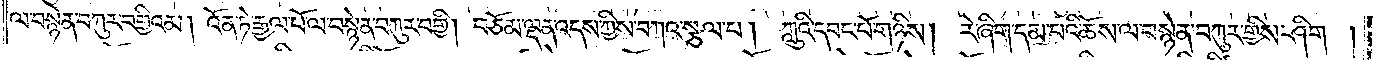ལ་བསྙེན་བཀུར་བགྱིའམ། འོན་ཏེ་རྒྱལ་པོ་ལ་བསྙེན་བཀུར་བགྱི། བཅོམ་ལྡན་འདས་ཀྱིས་བཀའ་སྩལ་པ། ཀླུའི་དབང་པོ་གཉིས། རེ་ཞིག་དམ་པའི་ཆོས་ལ་བསྙེན་བཀུར་གྱིས་ཤིག །
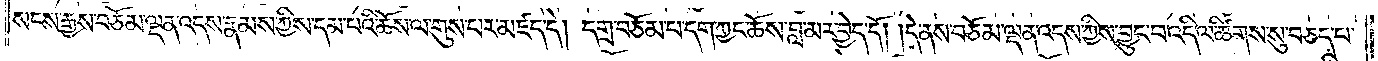སངས་རྒྱས་བཅོམ་ལྡན་འདས་རྣམས་ཀྱིས་དམ་པའི་ཆོས་ལ་གུས་པར་མཛད་དེ། དགྲ་བཅོམ་པ་དག་ཀྱང་ཆོས་བླ་མར་བྱེད་དོ། །དེ་ནས་བཅོམ་ལྡན་འདས་ཀྱིས་བྱུང་བ་འདི་ལ་ཚིགས་སུ་བཅད་པ་
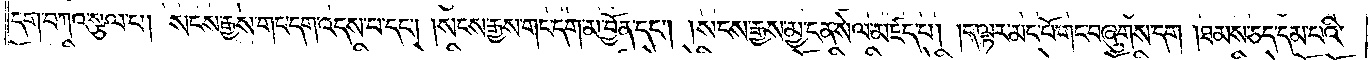དག་བཀའ་སྩལ་པ། སངས་རྒྱས་གང་དག་འདས་པ་དང༌། །སངས་རྒྱས་གང་དག་མ་བྱོན་དང༌། །སངས་རྒྱས་མྱ་ངན་སེལ་མཛད་པ། །ད་ལྟར་མང་པོ་གང་བཞུགས་དག །ཐམས་ཅད་དམ་པའི་
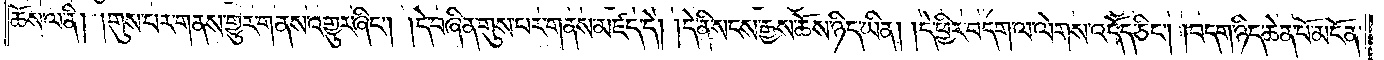ཆོས་ལ་ནི། །གུས་པར་གནས་གྱུར་གནས་འགྱུར་ཞིང༌། །དེ་བཞིན་གུས་པར་གནས་མཛད་དེ། །དེ་ནི་སངས་རྒྱས་ཆོས་ཉིད་ཡིན། །དེ་ཕྱིར་བདག་ལ་ལེགས་འདོད་ཅིང༌། །བདག་ཉིད་ཆེན་པོ་མངོན་
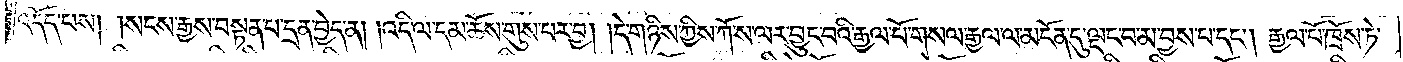འདོད་པས། །སངས་རྒྱས་བསྟན་པ་དྲན་བྱེད་ན། །འདི་ལ་དམ་ཆོས་གུས་པར་བྱ། །དེ་གཉིས་ཀྱིས་ཀོ་ས་ལར་བྱུང་བའི་རྒྱལ་པོ་གསལ་རྒྱལ་ལ་མངོན་དུ་ལྡང་བ་མ་བྱས་པ་དང༌། རྒྱལ་པོ་ཁྲོས་ཏེ་
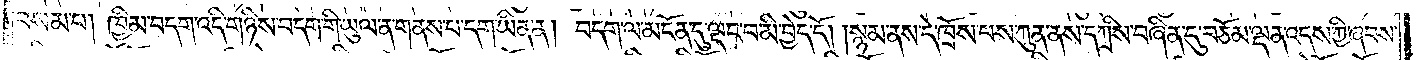བསམ་པ། ཁྱིམ་བདག་འདི་གཉིས་བདག་གི་ཡུལ་ན་གནས་པ་དག་ཡིན་ན། བདག་ལ་མངོན་དུ་ལྡང་བ་མི་བྱེད་དོ། །སྙམ་ནས་དེ་ཁྲོས་པས་ཀུན་ནས་དཀྲིས་བཞིན་དུ་བཅོམ་ལྡན་འདས་ཀྱི་ཞབས་
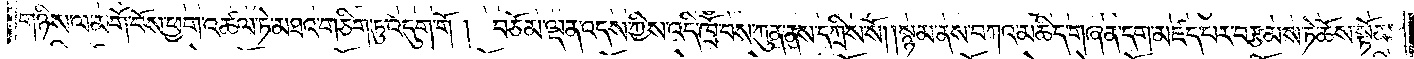གཉིས་ལ་མགོ་བོས་ཕྱག་འཚལ་ཏེ་མཐའ་གཅིག་ཏུ་འདུག་གོ ། བཅོམ་ལྡན་འདས་ཀྱིས་འདི་ཁྲོ་བས་ཀུན་ནས་དཀྲིས་སོ། །སྙམ་ནས་བཀའ་མཆིད་གཞན་དག་མཛད་པར་བརྩམས་ཏེ་ཆོས་སྟོན་
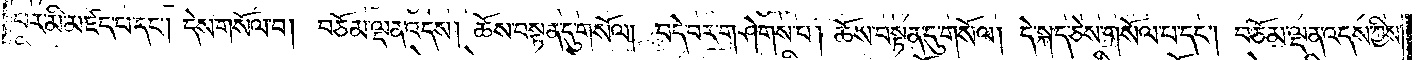པར་མི་མཛད་པ་དང༌། དེས་གསོལ་བ། བཅོམ་ལྡན་འདས། ཆོས་བསྟན་དུ་གསོལ། །བདེ་བར་གཤེགས་པ། ཆོས་བསྟན་དུ་གསོལ། དེ་སྐད་ཅེས་གསོལ་པ་དང༌། བཅོམ་ལྡན་འདས་ཀྱིས་
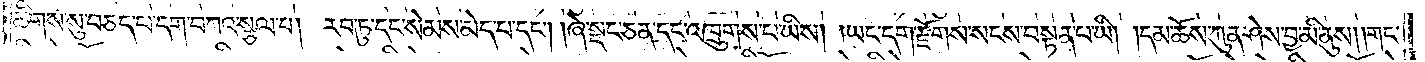ཚིགས་སུ་བཅད་པ་དག་བཀའ་སྩལ་པ། རབ་ཏུ་དང་སེམས་མེད་པ་དང༌། །ཞེ་སྡང་ཅན་དང་འཁྲུགས་པ་ཡིས། །ཡང་དག་རྫོགས་སངས་བསྟན་པ་ཡི། །དམ་ཆོས་ཀུན་ཤེས་བྱ་མི་ནུས༎གང་
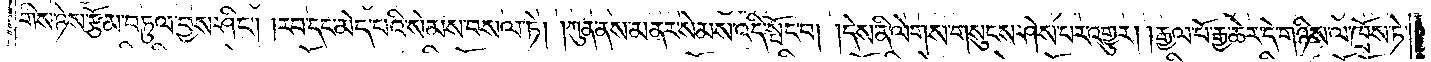གིས་ཉེས་རྩོམ་བཏུལ་བྱས་ཤིང༌། །རབ་དང་མེད་པའི་སེམས་བསལ་ཏེ། །ཀུན་ནས་མནར་སེམས་འདི་སྤོང་བ། །དེས་ནི་ལེགས་གསུངས་ཤེས་པར་འགྱུར། །རྒྱལ་པོ་རྒྱ་ཆེར་དེ་གཉིས་ལ་ཁྲོས་ཏེ་
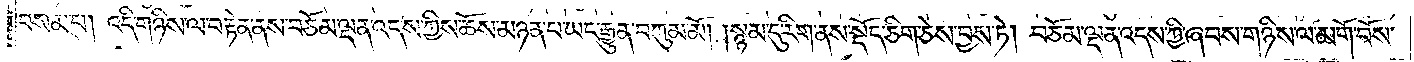བསམ་པ། འདི་གཉིས་ལ་བརྟེན་ནས་བཅོམ་ལྡན་འདས་ཀྱིས་ཆོས་མཉན་པ་ཡང་རྒྱུན་བཀུམ་མོ། །སྙམ་དུ་རིག་ནས་སྡོད་ཅིག་ཅེས་བྱས་ཏེ། བཅོམ་ལྡན་འདས་ཀྱི་ཞབས་གཉིས་ལ་མགོ་བོས་
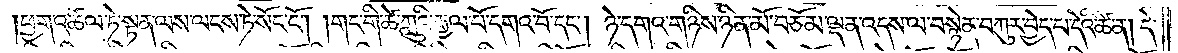ཕྱག་འཚལ་ཏེ་སྟན་ལས་ལངས་ཏེ་སོང་ངོ༌། །གང་གི་ཚེ་ཀླུའི་རྒྱལ་པོ་དགའ་བོ་དང༌། ཉེ་དགའ་གཉིས་ཉིན་མོ་བཅོམ་ལྡན་འདས་ལ་བསྙེན་བཀུར་བྱེད་པ་དེའི་ཚེ་ན། དེ་
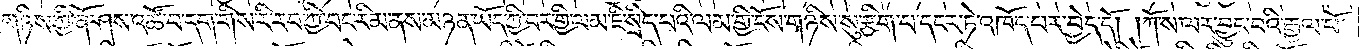གཉིས་ཀྱི་ཞོ་ཤས་འཚོ་བ་དག་གིས་རི་རབ་ཀྱི་བང་རིམ་ནས་མཉན་ཡོད་ཀྱི་བར་གྱི་ལམ་ཇི་སྲིད་པའི་ལམ་གྱི་ངོས་གཉིས་སུ་རྩིག་པ་དངར་ཏེ་འཁོད་པར་བྱེད་དོ། །ཀོ་ས་ལར་བྱུང་བའི་རྒྱལ་པོ་
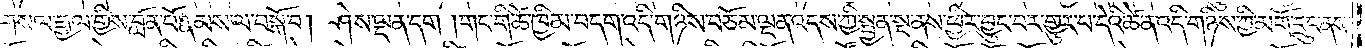གསལ་རྒྱལ་གྱིས་བློན་པོ་རྣམས་ལ་བསྒོ་བ། ཤེས་ལྡན་དག །གང་གི་ཚེ་ཁྱིམ་བདག་འདི་གཉིས་བཅོམ་ལྡན་འདས་ཀྱི་སྤྱན་སྔ་ནས་ཕྱིར་བྱུང་བར་གྱུར་པ་དེའི་ཚེ་ན་འདི་གཉིས་ཀྱི་མགོ་དྲུང་ནས་
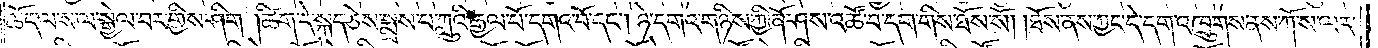ཆོད་ལ་ས་ལ་སྒྱེལ་བར་གྱིས་ཤིག །ཚིག་དེ་སྐད་ཅེས་སྨྲས་པ་ཀླུའི་རྒྱལ་པོ་དགའ་བོ་དང༌། ཉེ་དགའ་གཉིས་ཀྱི་ཞོ་ཤས་འཚོ་བ་དག་གིས་ཐོས་སོ། །ཐོས་ནས་ཀྱང་དེ་དག་འཁྲུགས་ནས་ཀོ་ས་ལར་
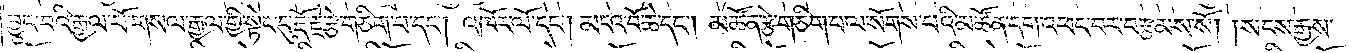བྱུང་བའི་རྒྱལ་པོ་གསལ་རྒྱལ་གྱི་སྟེང་དུ་རྡོ་རྗེ་རྩེ་གཅིག་པ་དང༌། འཁོར་ལོ་དང༌། མངའ་བོ་ཆེ་དང༌། མཚོན་རྩེ་གཅིག་པ་ལ་སོགས་པའི་མཚོན་དག་འཕང་བར་བརྩམས་སོ། །སངས་རྒྱས་
